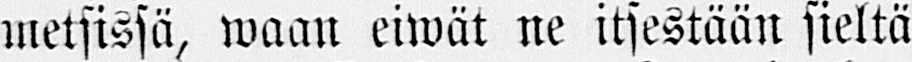metsissä, waan eiwät ne itsestään sieltä
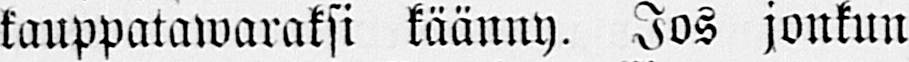kauppatawaraksi käänny. Jos jonkun
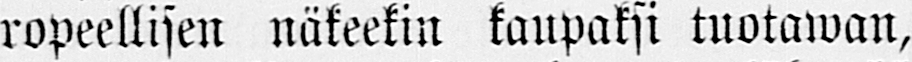ropeellisen näkeekin kaupaksi tuotawan,
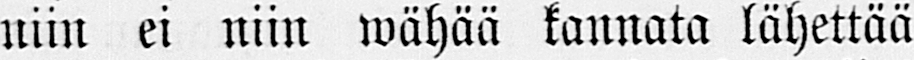niin ei niin wähää kannata lähettää
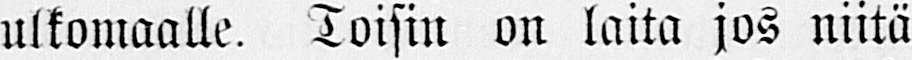ulkomaalle. Toisin on laita jos niitä
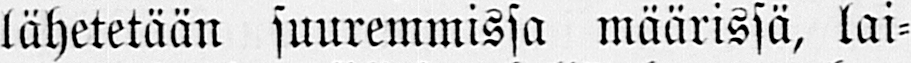lähetetään suuremmissa määrissä, lai-
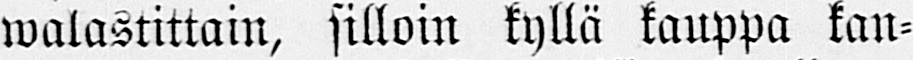walastittain, silloin kyllä kauppa kan-
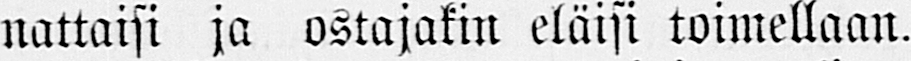nattaisi ja ostajakin eläisi toimellaan.
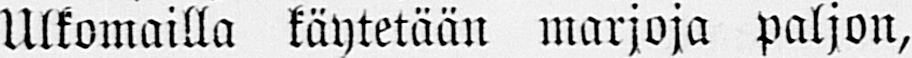Ulkomailla käytetään marjoja paljon,
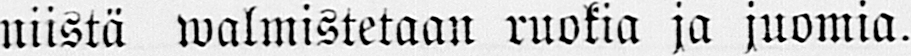niistä walmistetaan ruokia ja juomia.
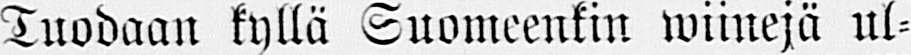Tuodaan kyllä Suomeenkin wiinejä ul-
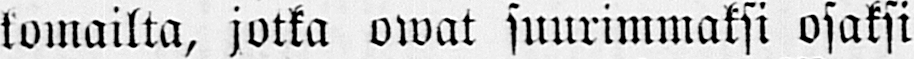komailta, jotka owat suurimmaksi osaksi
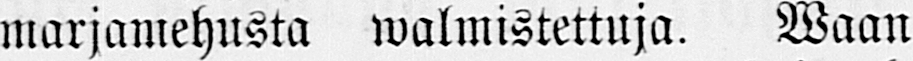marjamehusta walmistettuja. Waan
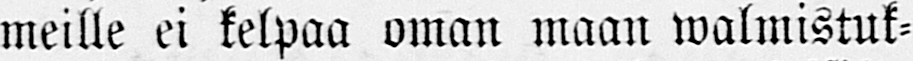meille ei kelpaa oman maan walmistuk-
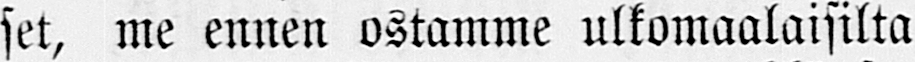set, me ennen ostamme ulkomaalaisilta
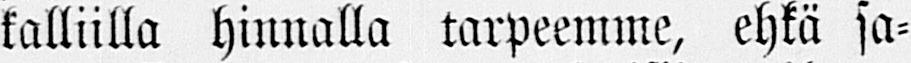kalliilla hinnalla tarpeemme, ehkä sa-
